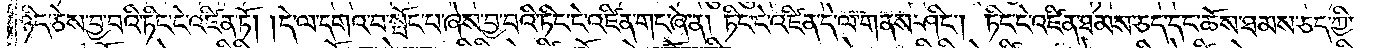ཉིད་ཅེས་བྱ་བའི་ཏིང་ངེ་འཛིན་ཏོ། །དེ་ལ་དགའ་བ་སྤོང་བ་ཞེས་བྱ་བའི་ཏིང་ངེ་འཛིན་གང་ཞེ་ན། ཏིང་ངེ་འཛིན་དེ་ལ་གནས་ཤིང༌། ཏིང་ངེ་འཛིན་ཐམས་ཅད་དང་ཆོས་ཐམས་ཅད་ཀྱི་
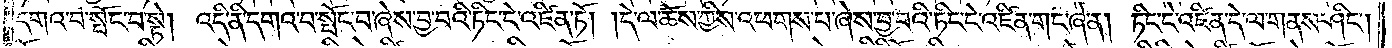དགའ་བ་སྤོང་བ་སྟེ། འདི་ནི་དགའ་བ་སྤོང་བ་ཞེས་བྱ་བའི་ཏིང་ངེ་འཛིན་ཏོ། །དེ་ལ་ཆོས་ཀྱིས་འཕགས་པ་ཞེས་བྱ་བའི་ཏིང་ངེ་འཛིན་གང་ཞེ་ན། ཏིང་ངེ་འཛིན་དེ་ལ་གནས་ཤིང༌།
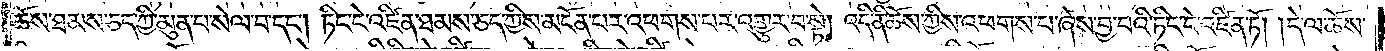ཆོས་ཐམས་ཅད་ཀྱི་མུན་པ་སེལ་བ་དང༌། ཏིང་ངེ་འཛིན་ཐམས་ཅད་ཀྱིས་མངོན་པར་འཕགས་པར་འགྱུར་བ་སྟེ། འདི་ནི་ཆོས་ཀྱིས་འཕགས་པ་ཞེས་བྱ་བའི་ཏིང་ངེ་འཛིན་ཏོ། །དེ་ལ་ཆོས་
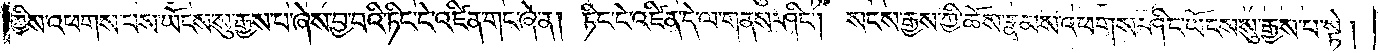ཀྱིས་འཕགས་པས་ཡོངས་སུ་རྒྱས་པ་ཞེས་བྱ་བའི་ཏིང་ངེ་འཛིན་གང་ཞེ་ན། ཏིང་ངེ་འཛིན་དེ་ལ་གནས་ཤིང༌། སངས་རྒྱས་ཀྱི་ཆོས་རྣམས་འཕགས་ཤིང་ཡོངས་སུ་རྒྱས་པ་སྟེ །
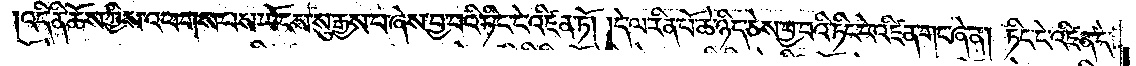འདི་ནི་ཆོས་ཀྱིས་འཕགས་པས་ཡོངས་སུ་རྒྱས་པ་ཞེས་བྱ་བའི་ཏིང་ངེ་འཛིན་ཏོ། །དེ་ལ་རིན་པོ་ཆེ་ཉིད་ཅེས་བྱ་བའི་ཏིང་ངེ་འཛིན་གང་ཞེ་ན། ཏིང་ངེ་འཛིན་དེ་
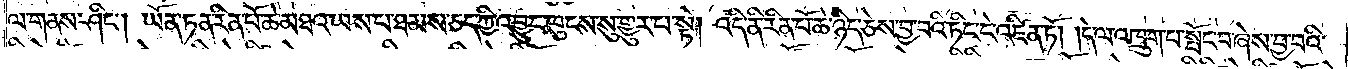ལ་གནས་ཤིང༌། ཡོན་ཏན་རིན་པོ་ཆེ་མཐའ་ཡས་པ་ཐམས་ཅད་ཀྱི་འབྱུང་ཁུངས་སུ་གྱུར་པ་སྟེ། འདི་ནི་རིན་པོ་ཆེ་ཉིད་ཅེས་བྱ་བའི་ཏིང་ངེ་འཛིན་ཏོ། །དེ་ལ་འཁྲུག་པ་སྤོང་བ་ཞེས་བྱ་བའི་
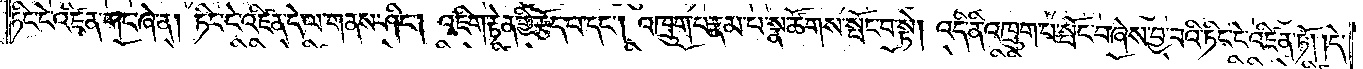ཏིང་ངེ་འཛིན་གང་ཞེ་ན། ཏིང་ངེ་འཛིན་དེ་ལ་གནས་ཤིང༌། འཇིག་རྟེན་གྱི་རྩོད་པ་དང༌། འཁྲུག་པ་རྣམ་པ་སྣ་ཚོགས་སྤོང་བ་སྟེ། འདི་ནི་འཁྲུག་པ་སྤོང་བ་ཞེས་བྱ་བའི་ཏིང་ངེ་འཛིན་ཏོ། །དེ་
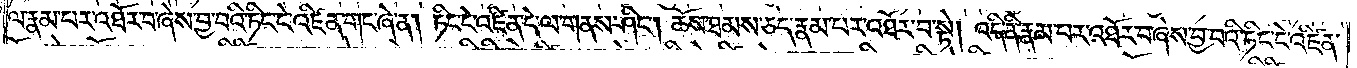ལ་རྣམ་པར་འཐོར་བ་ཞེས་བྱ་བའི་ཏིང་ངེ་འཛིན་གང་ཞེ་ན། ཏིང་ངེ་འཛིན་དེ་ལ་གནས་ཤིང༌། ཆོས་ཐམས་ཅད་རྣམ་པར་འཐོར་བ་སྟེ། འདི་ནི་རྣམ་པར་འཐོར་བ་ཞེས་བྱ་བའི་ཏིང་ངེ་འཛིན་
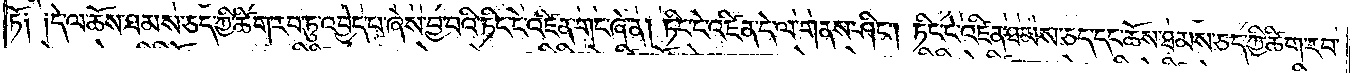ཏོ༑ ༑དེ་ལ་ཆོས་ཐམས་ཅད་ཀྱི་ཚིག་རབ་ཏུ་འབྱེད་པ་ཞེས་བྱ་བའི་ཏིང་ངེ་འཛིན་གང་ཞེ་ན། ཏིང་ངེ་འཛིན་དེ་ལ་གནས་ཤིང༌། ཏིང་ངེ་འཛིན་ཐམས་ཅད་དང་ཆོས་ཐམས་ཅད་ཀྱི་ཚིག་རབ་
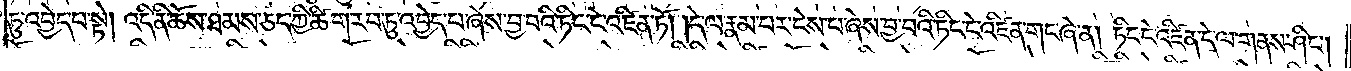ཏུ་འབྱེད་པ་སྟེ། འདི་ནི་ཆོས་ཐམས་ཅད་ཀྱི་ཚིག་རབ་ཏུ་འབྱེད་པ་ཞེས་བྱ་བའི་ཏིང་ངེ་འཛིན་ཏོ། །དེ་ལ་རྣམ་པར་ངེས་པ་ཞེས་བྱ་བའི་ཏིང་ངེ་འཛིན་གང་ཞེ་ན། ཏིང་ངེ་འཛིན་དེ་ལ་གནས་ཤིང༌།
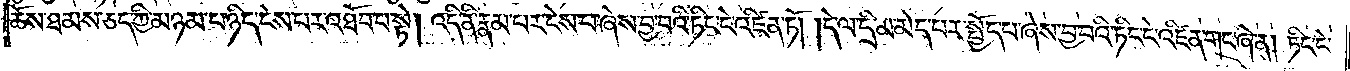ཆོས་ཐམས་ཅད་ཀྱི་མཉམ་པ་ཉིད་ངེས་པར་འཐོབ་པ་སྟེ། འདི་ནི་རྣམ་པར་ངེས་པ་ཞེས་བྱ་བའི་ཏིང་ངེ་འཛིན་ཏོ། །དེ་ལ་དྲི་མ་མེད་པར་སྤྱོད་པ་ཞེས་བྱ་བའི་ཏིང་ངེ་འཛིན་གང་ཞེ་ན། ཏིང་ངེ་
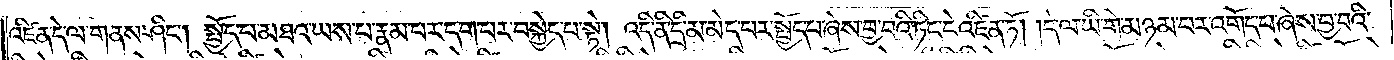འཛིན་དེ་ལ་གནས་ཤིང༌། སྤྱོད་པ་མཐའ་ཡས་པ་རྣམ་པར་དག་པར་བསྐྱེད་པ་སྟེ། འདི་ནི་དྲི་མ་མེད་པར་སྤྱོད་པ་ཞེས་བྱ་བའི་ཏིང་ངེ་འཛིན་ཏོ། དེ་ལ་ཡི་གེ་མཉམ་པར་འགོད་པ་ཞེས་བྱ་བའི་
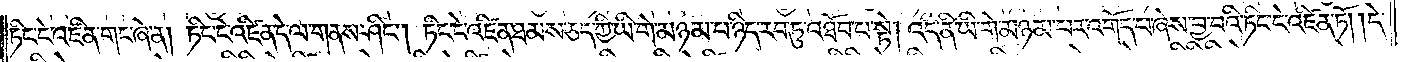ཏིང་ངེ་འཛིན་གང་ཞེ་ན། ཏིང་ངེ་འཛིན་དེ་ལ་གནས་ཤིང༌། ཏིང་ངེ་འཛིན་ཐམས་ཅད་ཀྱི་ཡི་གེ་མཉམ་པ་ཉིད་རབ་ཏུ་འཐོབ་པ་སྟེ། འདི་ནི་ཡི་གེ་མཉམ་པར་འགོད་པ་ཞེས་བྱ་བའི་ཏིང་ངེ་འཛིན་ཏོ། །དེ་
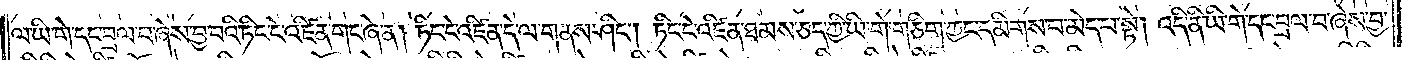ལ་ཡི་གེ་དང་བྲལ་བ་ཞེས་བྱ་བའི་ཏིང་ངེ་འཛིན་གང་ཞེ་ན། ཏིང་ངེ་འཛིན་དེ་ལ་གནས་ཤིང༌། ཏིང་ངེ་འཛིན་ཐམས་ཅད་ཀྱི་ཡི་གེ་གཅིག་ཀྱང་དམིགས་པ་མེད་པ་སྟེ། འདི་ནི་ཡི་གེ་དང་བྲལ་བ་ཞེས་བྱ་
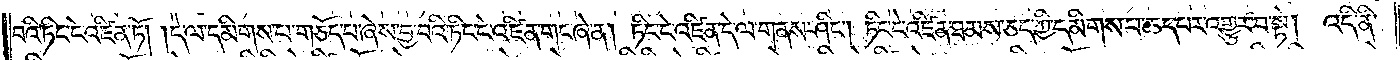བའི་ཏིང་ངེ་འཛིན་ཏོ། །དེ་ལ་དམིགས་པ་གཅོད་པ་ཞེས་བྱ་བའི་ཏིང་ངེ་འཛིན་གང་ཞེ་ན། ཏིང་ངེ་འཛིན་དེ་ལ་གནས་ཤིང༌། ཏིང་ངེ་འཛིན་ཐམས་ཅད་ཀྱི་དམིགས་པ་ཆད་པར་འགྱུར་བ་སྟེ། འདི་ནི་
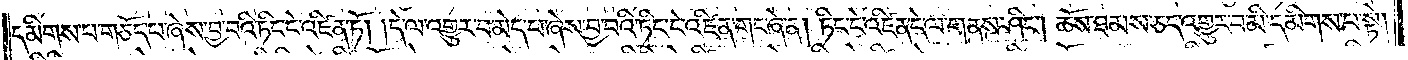དམིགས་པ་གཅོད་པ་ཞེས་བྱ་བའི་ཏིང་ངེ་འཛིན་ཏོ། །དེ་ལ་འགྱུར་བ་མེད་པ་ཞེས་བྱ་བའི་ཏིང་ངེ་འཛིན་གང་ཞེ་ན། ཏིང་ངེ་འཛིན་དེ་ལ་གནས་ཤིང༌། ཆོས་ཐམས་ཅད་འགྱུར་བ་མི་དམིགས་པ་སྟེ།
